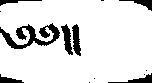༄༅།།
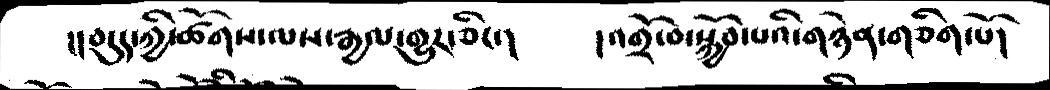།།བདུད་ཀྱི་ཚོགས་ལས་རྒྱལ་གྱུར་ཅིང་།   །འགྲོ་བ་སྐྱོབ་པའི་གཉེན་གཅིག་པོ།
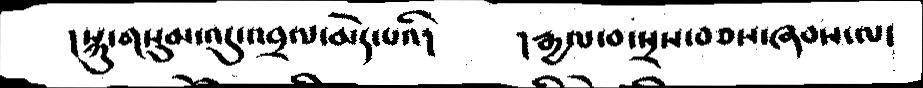།སྐུ་གསུམ་འདུ་འབྲལ་མེད་པའི།    །རྒྱལ་བ་སྲས་བཅས་ཞབས་ལ་
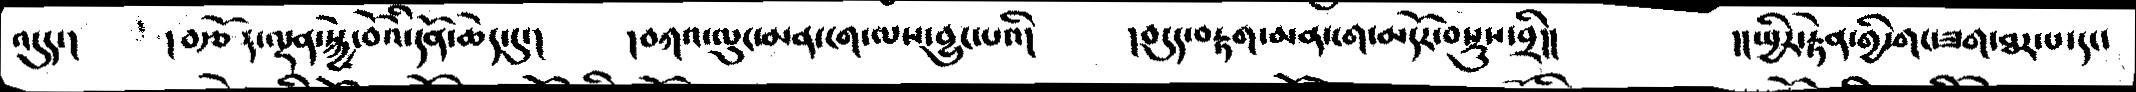འདུད་།    །བརྩོད་ལྡན་སྐྱེ་བོའི་དོན་ཆེད་དུ་།   །བཀའ་ལུང་མན་ངག་ས་བྱུང་པའི།   །བདུད་བརྟག་མན་ངག་མདོར་བསྡུས་བྲི།།   །།སྤྱིར་རྟེན་གྱི་གང་ཟག་ཐར་པ་དང་
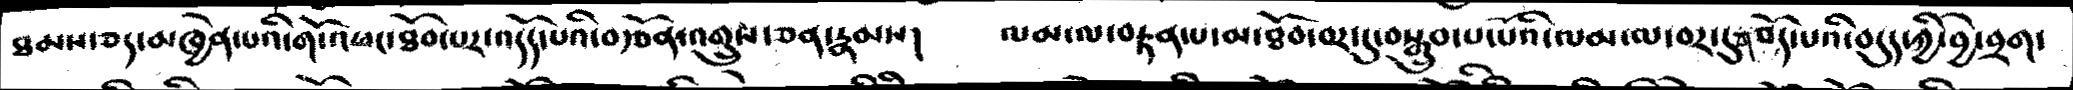ཐམས་ཅད་མཁྱེན་པའི་གོ་འཕང་ཐོབ་པར་འདོད་པའི་བརྩོན་འགྲུས་ཅན་རྣམས།    ལམ་ལ་བརྟན་པ་མ་ཐོབ་བར་དུ་བསྒྲུབ་པ་པོའི་ལམ་ལ་བར་དུ་གཅོད་པའི་བདུད་ཀྱི་བྱེ་བྲག་
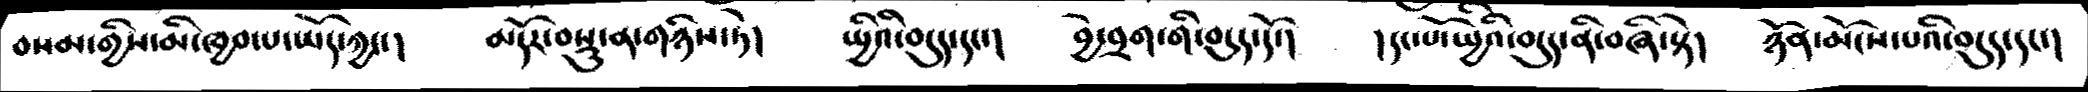བསམ་གྱིས་མི་ཁྱབ་པ་ཡོད་ཀྱང་།    མདོར་བསྡུ་ན་གཉིས་ཏེ།     སྤྱིའི་བདུད་དང་།   བྱེ་བྲག་གི་བདུད་དོ་།   །དང་པོ་སྤྱིའི་བདུད་ནི་བཞི་སྟེ།    ཉོནམོངས་པའི་བདུད་དང་།
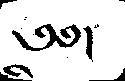༄༅།
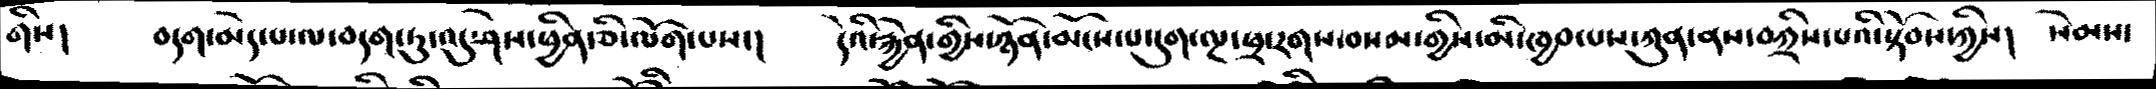གིས།   བདག་མེད་པ་ལ་བདག་ཏུ་འདུ་ཤེས་ཕྱིན་ཅི་ལོག་པས་།   དེའི་རྐྱེན་གྱིས་ཉོན་མོངས་པ་དུག་ལྔ་ཕྲ་རགས་བསམ་གྱིས་མི་ཁྱབ་པས་ཀུན་ནས་བཀྲིས་པའི་སྟོབས་ཀྱིས།   སེམས་
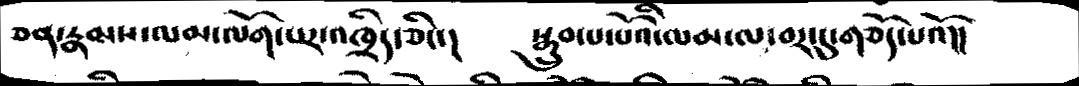ཅན་རྣམས་ལམ་ལོག་པར་འཁྲིད་ཅིང་།    སྒྲུབ་པ་པོའི་ལམ་ལ་བར་དུ་གཅོད་པའོ།།
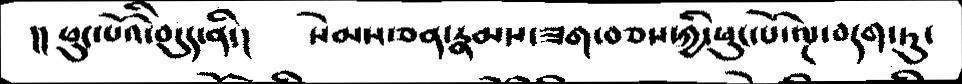།། ཕུང་པོའི་བདུད་ནི་།   སེམས་ཅན་རྣམས་ཟག་བཅས་ཀྱི་ཕུང་པོ་ལྔ་བདག་ཏུ་
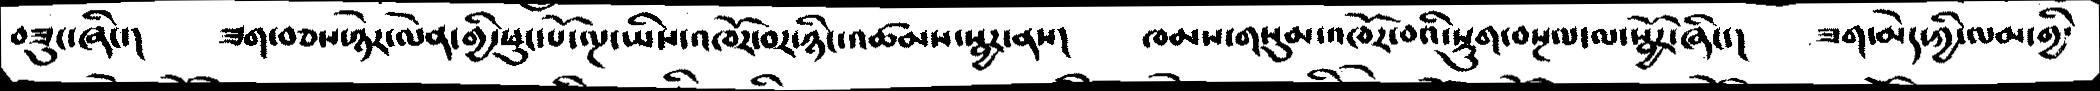བཟུང་ཞིང་།    ཟག་བཅས་ཉེར་ལེན་གྱི་ཕུང་པོ་ལྔ་ཡིས་འཁོར་བར་ཉིང་འཚམས་སྦྱར་ནས།    ཁམས་གསུམ་འཁོར་བའི་སྡུག་བསྔལ་ལ་སྦྱོར་ཞིང་།    ཟག་མེད་ཀྱི་ལམ་གྱི་
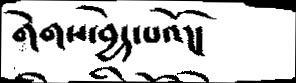གེགས་བྱེད་པའོ།།
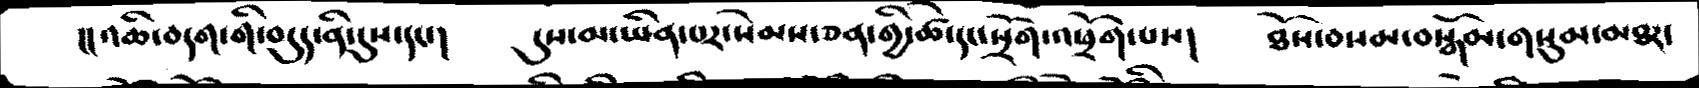།།འཆི་བདག་གི་བདུད་ནི་དུས་དང་།    དུས་མ་ཡིན་པར་སེམས་ཅན་གྱི་ཚེ་དང་སྲོག་འཕྲོག་པས།    ཐོས་བསམ་བསྒོམ་གསུམ་མཐར་
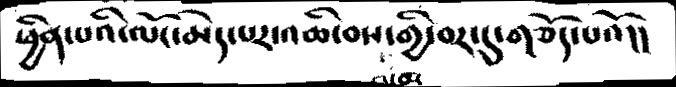ཕྱིན་པའི་ལོང་མེད་པར་འཆི་བས་ངམ་གྱི་བར་དུ་གཅོད་པའོ།།
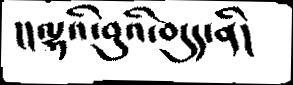།།ལྷའི་བུའི་བདུད་ནི།
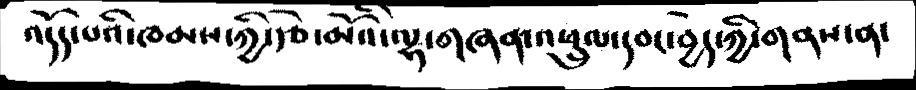འདོད་པའི་ཁམས་ཀྱི་རྩེ་མོའི་ལྷ་གཞན་འཕྲུལ་དབང་བྱེད་ཀྱི་གནས་ན་
